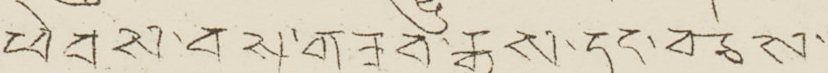ཕེབས་བསུ་གཟབ་རྒྱས་དང་བཅས་
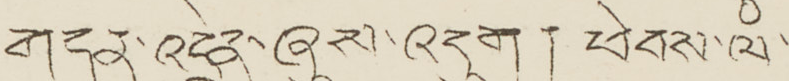གདན་འདྲེན་ཞུས་འདུག།། ཕེབས་ལཾ་
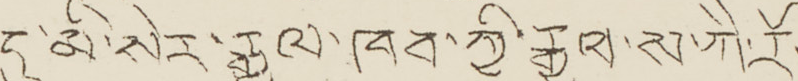དུ་མི་སེར་རྒྱལ་ཁབ་ཀྱི་རྒྱལ་ས་ཀཻ་རོ་
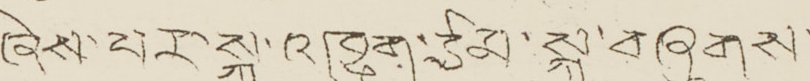ཞེས་པར་སྐུ་འཁྱུག་ཙམ་སྐུ་བཞུགས་
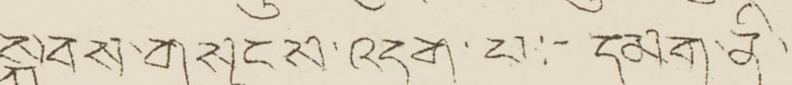སྐབས་གསུངས་འདུག་པ་-བཞུགས་
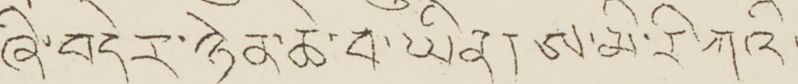ཞི་བདེར་ཉེན་ཆེ་བ་ཡིན། ཨ་མི་རི་ཀའི་
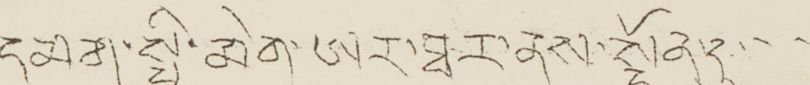དམག་སྤྱི་མེག་ཨར་ཐར་ནས་སྔོན་དུ་
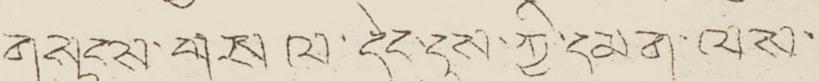གསུངས་གསལ་དེང་དུས་ཀྱི་དམག་ལས་
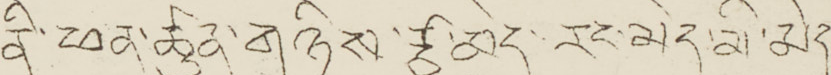ནི་ཕན་ཚུལ་གཉིས་རྩ་མེད་རང་མེད་མི་མེད
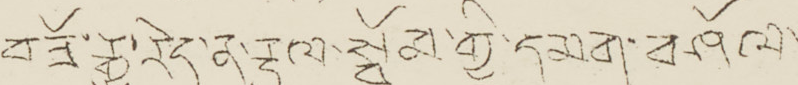བཟོ་རྒྱུ་རེད་ན་རྡུལ་སྦོམ་གྱི་དམག་བཤོལ་
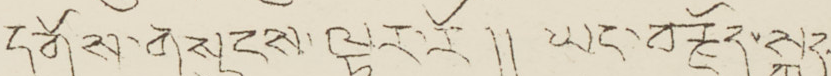དགོས་གསུངས་ལྟར་རོ།། ཡང་བརྗོད་སྐད་
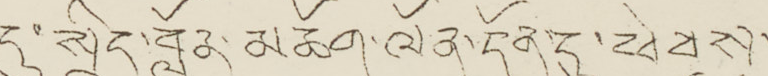དུ་སྲིད་བློན་མཆོག་ལོན་དོན་དུ་ཕེབས་
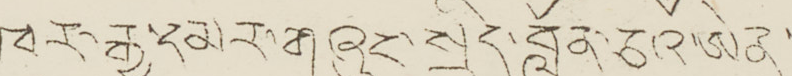ཁར་རྒྱ་དམར་གཞུང་སྲིད་བློན་ཅའོ་ཨེན་
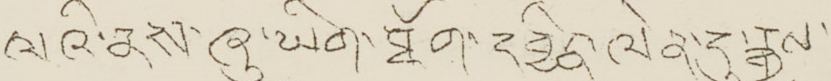ལའི་ནས་ཞུ་ཡིག་ཐོག་དབྱིན་ལེན་དུ་རྒྱས་
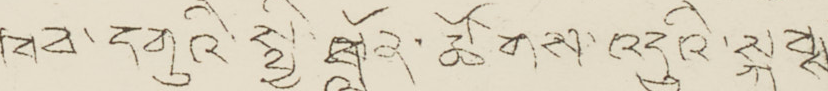ཁབ་དགུའི་སྤྱི་བློན་ཚོགས་འདུའི་སྐབྶ་
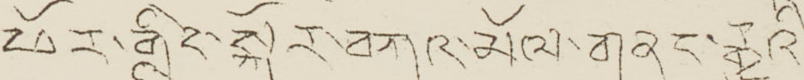ཕོར་གླིང་སྐོར་བཀའ་མོལ་གནང་རྒྱུའི་
